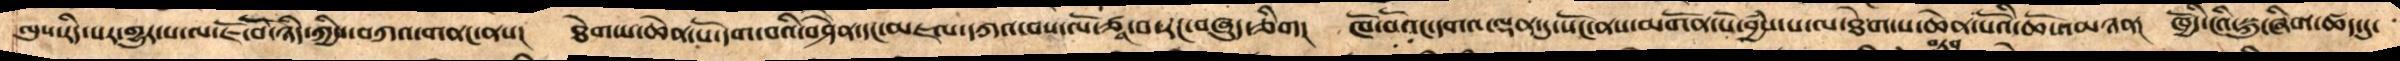ལུས་རིད་པར་གྱུར་པ་ལ་ཇོ་བོ་ཉིད་ཀྱིས་བཀའ་གནང་ནས།  ཐེག་པ་ཆེན་པོ་དགེ་བའི་བཤཻན་དང་མཇལ་དཀའ་བས་ལོ་ཙཱ་བ་རང་བཞུད་ཅིག།   ཁོ་བོའང་དགའ་ལྡན་དུ་སོང་ནས་མགོན་པོ་བྱཾས་པ་ལ་ཐེག་པ་ཆེན་པོའི་ཆོས་མཉན།  ཁྱོདི་ངའི་སྐུ་ཞིག་ཚད་དུ་
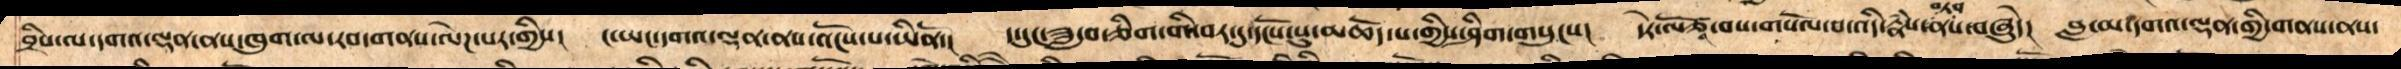བྲིས་ལ་དགའ་ལྡན་ནས་ཁུག་ལ་རབ་གནས་ལེཌ་པར་གྱིས།   ང་ཡང་དགའ་ལྡན་ནས་འོངས་པ་ཡིནོ་།   ད་དུང་ཟླ་བ་ཅིག་གི་བར་དུ་དངོས་སུ་མཆོད་པ་གྱིས་ཤིག་གསུངས།   དེར་ལོ་ཙཱ་བས་གསོལ་བ་འདི་རྣཾས་བཏབ་ནས་བཞུདེ།   བླ་མ་དགའ་ལྡན་གྱི་གནས་ནས་
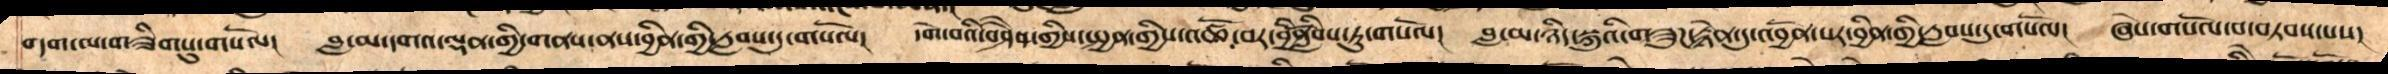བདག་ལ་གཟིགསུ་གསོལ།    བླ་མ་དགའ་ལྡན་གྱི་གནས་ནས་བྱིན་གྱི་རླབས་དུ་གསོལ།    དགེ་བའི་བཤཻན་གྱིས་སྤྱན་གྱིས་འཚོ་བར་བྱིནྱིརླབས་ཏུ་གསོལ།    བླ་མ་ཉིད་སྐུའི་གཟུཌ་རྙེན་དུ་འབྱོན་པར་བྱིན་གྱི་རླབས་དུ་གསོལ།  ཞེས་གསོལ་བ་བཏབས་པས།
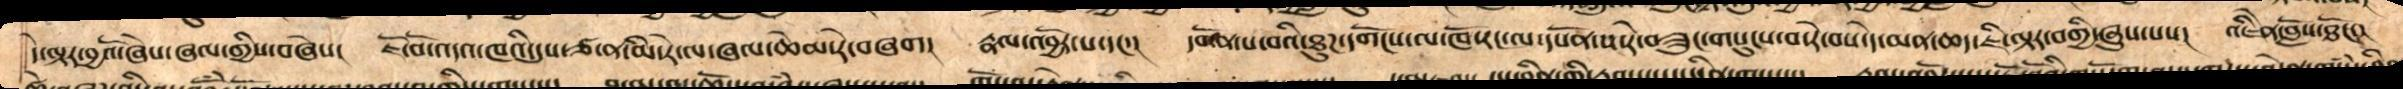དེ་ལྟར་བྱའོ་ཞེས་ཞལ་གྱིས་བཞེས།   ཇོ་བོ་འདའ་ཁའི་དུས་ཙ་ན་མི་རེ་ལ་ཞལ་ཆེམ་རེ་བཞག།    རྣལ་འབྱོར་པ་དང་།   དགོན་པ་བའི་ཐུཌ་དགོངས་ལ་ཁོ་རང་ལ་དཔོན་ས་རེ་བཟུང་གསུངས་བ་རེ་བས་དེ་མན་ཆད་ཇི་ལྟར་བགྱི་ཞུས་པས།   འཇིེན་བློས་ཐོང་།
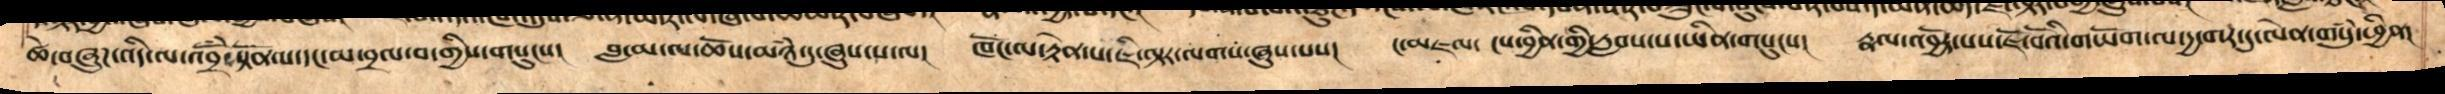ཚེ་གཞུཌ་འདི་ལ་འབྲོཾ་སྟོན་པ་དང་མ་བྲལ་བ་གྱིས་གསུངས།   བླ་མ་ལ་ཆོས་མཉཾ་དུ་ཞུས་པ་ལ།   ཁོང་ལ་རྟེན་པ་ཇི་ལྟར་ལགས་ཞུས་པས།   ང་མཇལ་ངས་བྱིན་གྱི་རླབས་པ་ཡིན་གསུངས།  རྣལ་འབྱོར་པས་ཇོ་བོའི་གཡོག་ལ་དྱ་གར་དུ་ལེན་གསུཾ་ཕྱིན།
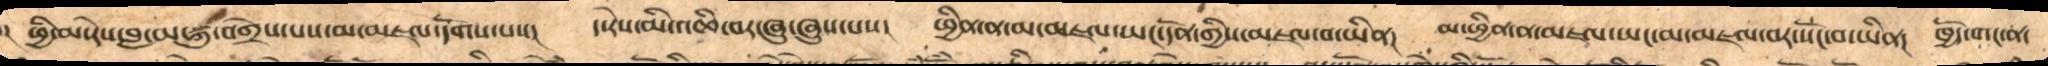། ཕྱི་མ་རེས་བླ་མ་སྐུ་བགྲེས་པས་མ་མཇལ་དོགས་པས།   ད་རེས་མི་མཆི་བར་ཞུ་ཞུས་པས།  ཕྱིན་ན་མ་མཇལ་ཡང་དོན་གྱིས་མཇལ་བ་ཡིན།   མ་ཕྱིན་ན་མཇལ་ཡང་མ་མཇལ་བར་སོང་བ་ཡིན།   ཁྱོད་གང་ན་
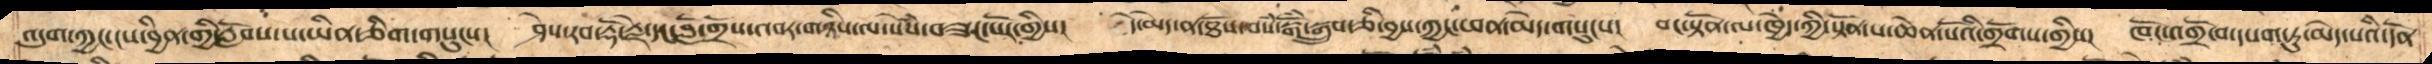འདུག་ཀྱང་ངས་བྱིན་གྱི་རློབས་པ་ཡིན་ཅིག་གསུངས།   ཤེས་རབ་རྡོ་རྗེ་དང་། བློ་གྲོས་འབར་གཉིས་ལ་སེཾས་བཟང་པོར་གྱིས།   དེ་མེད་ན་ཐོས་བསཾ་སྒོཾ་སྒྲུབ་ཅི་བྱས་ཀྱང་ཕན་མེད་གསུངས།   བང་སྟོན་ལ་ཁྱེད་ཀྱི་སྟོན་པ་ཆེན་པོའི་གྲོགས་གྱིས།  ཁོང་འགྲོ་བ་དཔག་ཏུ་མེད་པའི་དོན
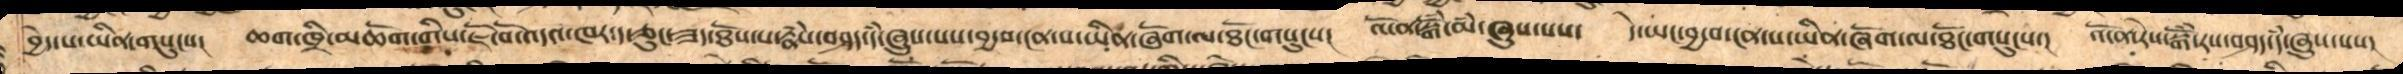བྱེད་པ་ཡིན་གསུངས།   ཆག་ཁྲི་མཆོག་གིས་ཇོ་བོ་འདའ་ཁར་ད་ཅུང་ཟད་ཐོས་པ་རྣཾས་བཤད་དཾ་ཞུས་པས་བྱ་བ་ངན་པ་ཡིན་ཞོག་ལ་ཐོང་གསུངས།  འོ་ན་སྒོཾ་མཾ་ཞུས་པས།   དེ་ཡང་བྱ་བ་ངན་པ་ཡིན་ཞོག་ལ་ཐོང་གསུངས་།  འོ་ན་རེས་སྒོཾ་རས་བཤད་དཾ་ཞུས་པས།
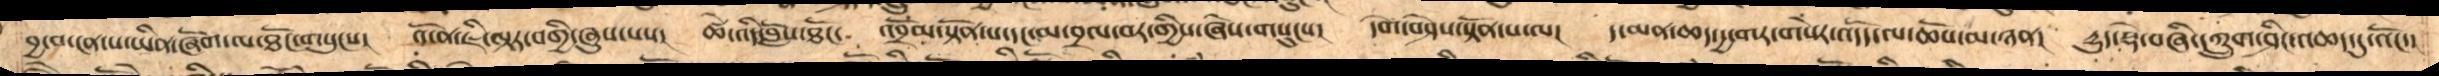བྱ་བ་ངན་པ་ཡིན་ཞོག་ལ་ཐོང་གསུངས།   འོ་ན་ཇི་ལྟར་བགྱི་ཞུས་པས།   ཚེ་འདི་བློས་ཐོང་   འབྲོམ་སྟོན་པ་དང་མ་བྲལ་བར་གྱིས་ཞེས་གསུངས།    དགེ་བཤེས་སྟོན་པ་ལ།  ད་མན་ཆད་དྱ་གར་གསེར་འདོད་ལ་ཆོས་མ་ཉན།   དྱུད་སྡེ་བཞི་དཀྲུག་ཤིང་འཆད་དུ་འོང་།
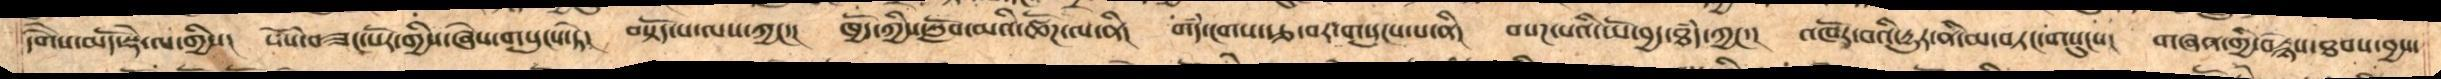དགཻས་མདོ་སྡེ་ལ་གྱིས།    སེཾས་བཟང་པོར་གྱིས་ཞེས་གསུངས་ཏེ།   བསྟོད་པ་ལས་ཀྱང་།   ཁྱོད་ཀྱིས་སློབ་མའི་ཚོཌ་ལ་ནི།    གདཾ་ངགས་རྩ་བར་གསུངས་པ་ནི།   བསཌ་་པའི་ཡོ་བྱད་ཐཾད་ཀྱང་།   འཁོར་བའི་དྱུར་ནི་མི་གཏང་གསུངས།།  གཞན་གྱི་བརྙས་ཐབས་བྱས་
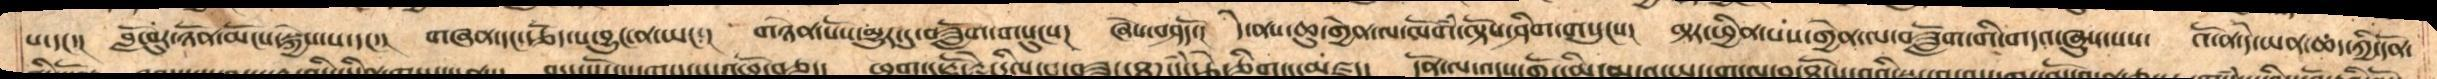པ་དང་། གློ་བུར་ཉོན་མོངས་སྐྱེས་པ་དང་། གཞན་དང་རྩོད་པ་བྱུང་ན་ཡང་། གཉེན་པོས་མྱུར་དུ་ཟློག་གསུངས།  ཞེས་བཤདོ་།  དེ་ནས་ཆུ་གྱེན་ལ་ལོགཾ་ལྟོས་ཤིག་གསུངས། ལྟར་ཕྱིན་པས་གྱེན་ལ་བཟློག་གི་གདའ་ཞུས་པས་ འོ་ན་དེ་ཡན་ཆད་ཀྱི་དོན་
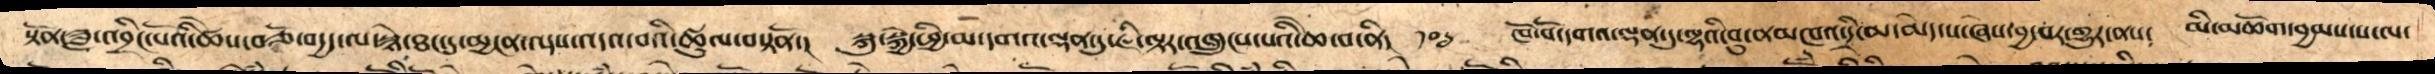སྟོན་ཟླ་འབྲིང་པོའི་ཚེས་བཅོ་བདྱད་ལ་སྙེ་ཐང་དུ་མྱ་ངན་ལས་འདའ་བའི་ཚུལ་བསྟནོ་།   སྐུ་སྐྱེ་ཕྱི་མ་དགའ་ལྡན་དུ་ཇི་ལྟར་འཁྲུངས་པའི་ཆེ་བ་ནི། ༡༠༦  ཁོ་བོ་དགའ་ལྡན་དུ་ལྷའི་བུ་ནམཁའ་དྲི་མ་མེད་པ་ཞེས་བྱ་བར་གྱུར་ནས།   མི་མཆོག་བྱམས་པ་ལ་
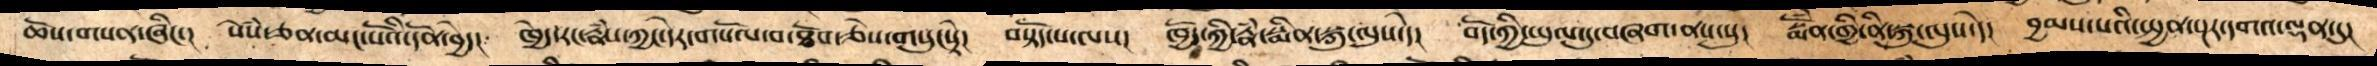ཆོས་གསན་ཞིང་།   སེཾས་ཅན་མང་པོའི་དོན་བྱེད།   ཁྱེད་རང་རྣཾས་ཀྱང་དེར་གསོལ་བ་ཐོབ་ཅེས་གསུངསྟེ།  བསྟོད་པ་ལས།   ཁྱོད་ཀྱི་རྣཾ་སྨིན་སྐུ་ལུས་དེ།   བོད་ཀྱི་ཡུལ་དུ་བཞག་ནས་སུ།  སྨོཾན་གྱི་ནི་སྐུ་ལུས་དེ།   བྱམས་པའི་སྤྱན་སྔར་དགའ་ལྡན་དུ།།
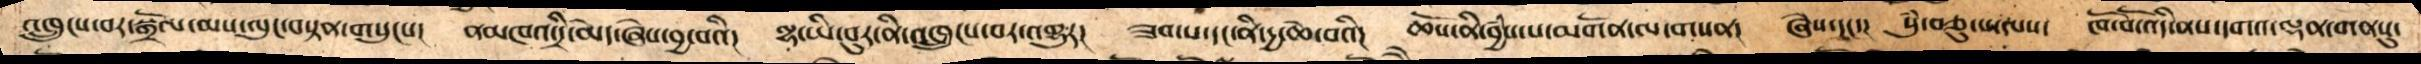འཁྲུངས་བར་སྒྲོལ་མས་ལུང་བསྟན་གསུངས།།   ནམཁའ་དྲི་མེད་ཞེས་བྱ་བའི།  ལྷ་ཡི་བུར་ནི་འཁྲུངས་པར་འགྱུར།  ཟབ་པ་དང་ནི་དྱ་ཆེ་བའི།  ཆོས་ནི་བྱཾས་པ་མགོན་ལ་གསན།།  ཞེས་དང་།  སུཾ་བཅུ་པ་ལས།   ཁོ་བོ་འདི་ནས་དགའ་ལྡན་གནསུ་
